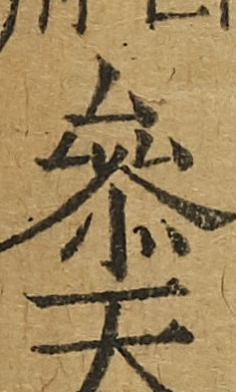參天
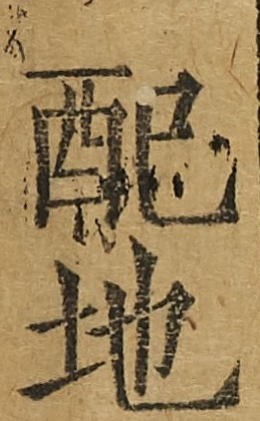配地
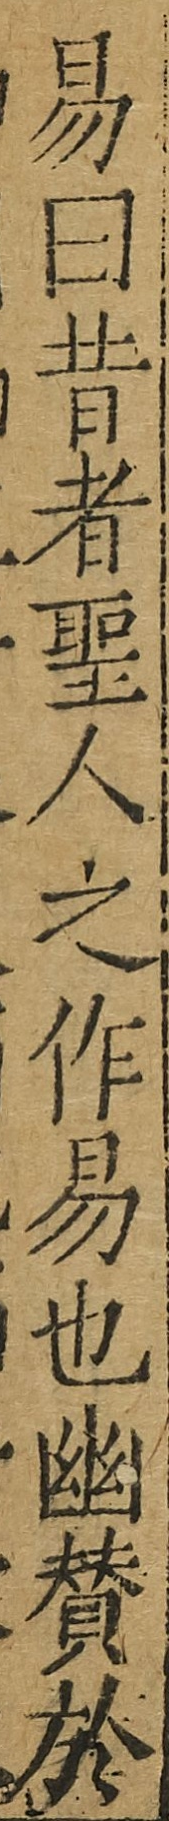易曰昔者聖人之作易也幽贊於
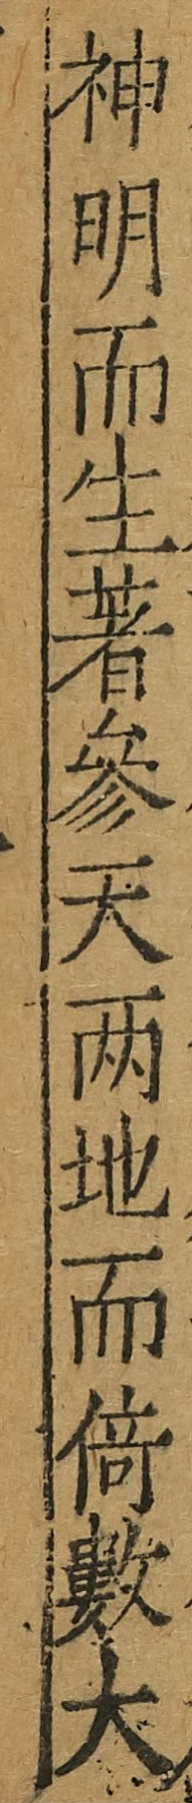神明而生蓍參天兩地而倚數大
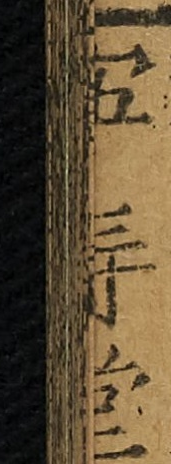寧壽堂
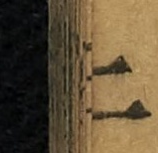二
